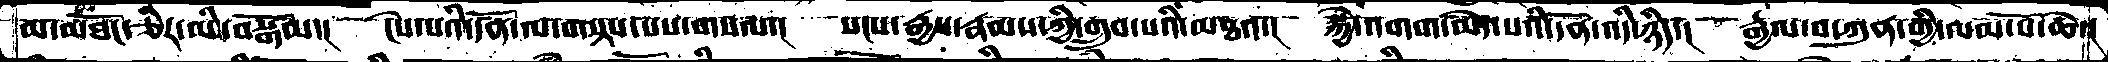མ་མཐོང་ཅིར་མི་བསྒོམ་།  ངེས་པའི་དོན་ལ་གསྟས་པས་གསལ་།  སངས་རྒྱས་རྣམས་ཀྱི་གྲུབ་པའི་མཐའ་།  སྐྱེ་འགག་མེད་པའི་དོན་འདི་ཉིད་།  རྒྱལ་བ་ཀུན་གྱི་ལམ་པོ་ཆེ་།
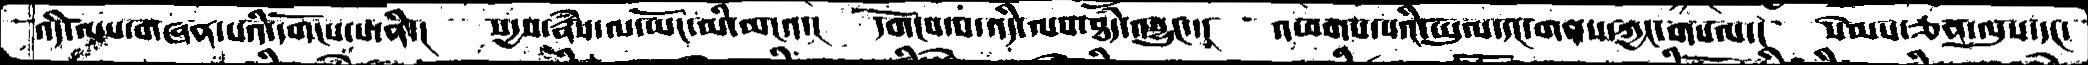འདི་ལས་གཞན་པའི་་དགོངས་པ་ནི་།  སདྱས་རྣཾས་ལ་ཡོང་མི་མངའ་།  དགོངས་པ་འདི་ལས་ཐཾད་འབྱུང་་།  འཕགས་པའི་ཡུལ་དང་གནས་ཀྱང་གསལ་།  སེམས་ཅན་ལུས་དང་
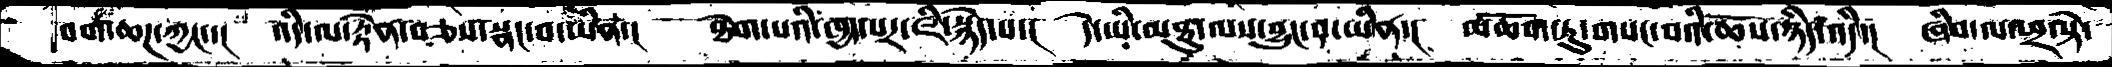བག་ཆཌ་ཀྱང་་།  འདི་ལ་རྟེན་བཅས་སྣང་བ་ཡིན་།  ཐེག་པའི་ཁྱད་པར་ཇི་སྙིད་པ་།  དེ་ཡི་མཐུ་ལས་བྱུང་བ་ཡིན་།  མཆོག་ཏུ་གསང་བའི་ཆོས་ཉིད་འདི་།  ཞིབ་ལ་ཕྲ་སྟེ་
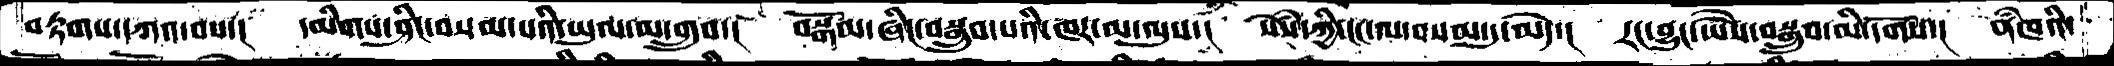བརྟགས་དཀའ་བས་།  དམིགས་ཤིང་བསམ་པའི་ཡུལ་མ་གྲུབ་།  བསྒོམ་ཞིང་བསྒྲུབ་པའི་ཁར་མ་ལུས་། སེཾས་ཀྱི་ངང་ལ་བསམ་དུ་མེད་།  རང་བྱུང་ཡཻས་བསྒྲུབ་མི་དགོས་།  ནཾཁའི་
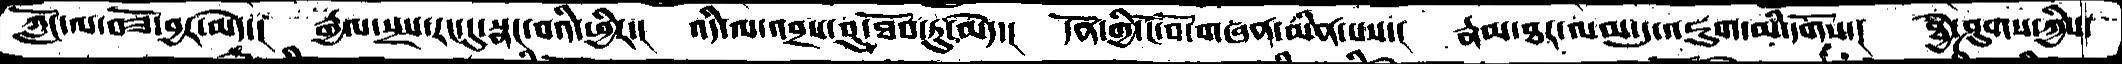ཀློང་ལ་བཟོ་བྱར་མེད་།  རྒྱལ་སྲས་རང་དུ་སྣང་བའི་ཕྱིར་།  འདི་ལ་འབྲས་བུ་ཐོབ་ཏུ་མེད་།  དོན་གྱི་ངོ་བོ་གཞན་མིན་པས་།  རྣམ་ཐར་ལམ་དུ་འཇུག་མི་དགོས་།  ཐྱེ་ཤུགས་ཀྱིས་
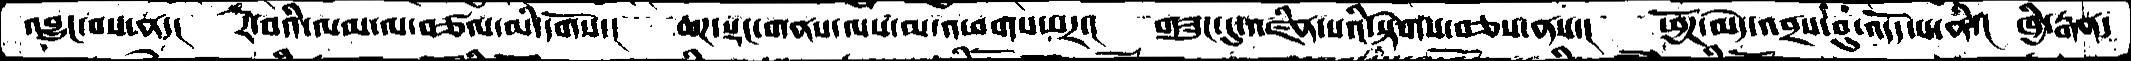འབྱུང་བས་ན་།  རེ་བའི་ལམ་ལ་བཙལ་མི་དགོས་།  ཆཌ་སྡང་གནས་ལས་མ་འཕགས་པར་།  གཟུང་དུ་འཛིན་པའི་སྟེགས་བཅས་ནས་།  ཕྱོཌ་མེད་འབྲས་བུ་འདོད་པ་ནི་།  ཁྱི་རྒན་
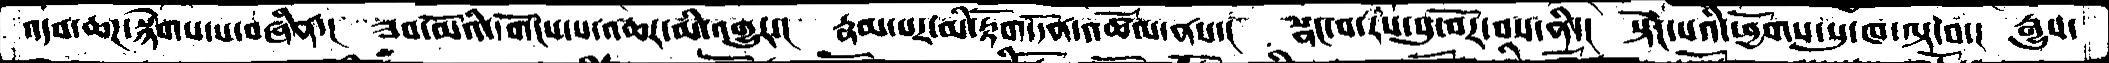འདབ་ཆཌ་སྙེགས་པ་བཞིན་།  ཟབ་མོའི་དགོངས་པ་འཆར་མི་འགྱུར་།  རྣམ་པར་མི་རྟོག་དོན་འཚོལ་ནས་།  སྣང་བ་རིས་སུ་བོར་བས་ནི་།  སྟེང་པའི་ཕྱོགས་སུ་ཁ་ལྟ་བ་།  རྒྱུས་
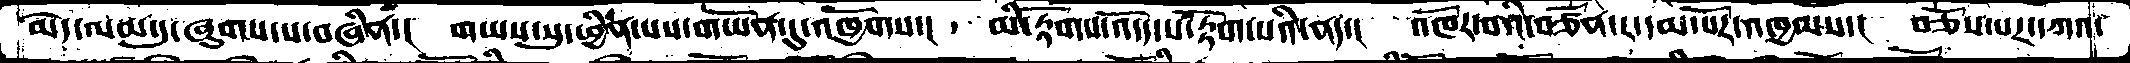མེད་ལམ་དུ་ཞུགས་པ་བཞིན་།  གཡས་སུ་ཕྱིན་པས་གཡོན་དུ་འཁྱོགས་།  མི་རྟོགས་འདོད་པ་རྟོག་པའི་ནད་།  འཁོར་བའི་བཙོན་ར་དམ་པོར་འཁྱམས་།  བཅོས་པར་དཀའ་
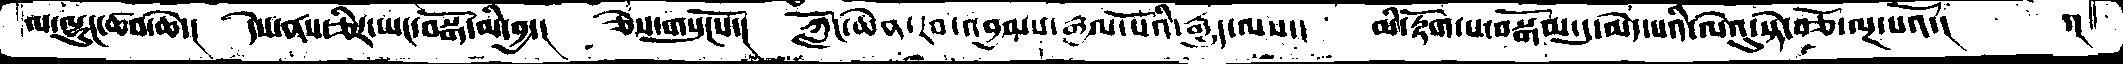ལ་ལྷུང་ཚབ་ཆེ་།  དེས་ནས་ཅིར་ཡང་བསྒོ་མི་བྱ་།  ཅེས་གསུངསོ་།  ཀློང་ཆེན་རབ་འབྱམས་རྒྱལ་པོའི་རྒྱུད་ལས་།  མི་རྟོག་པ་བསྒོམ་དུ་མེད་པའི་ལེའུ་སྟེ་བཅོ་ལྔ་པའོ་།   ་།
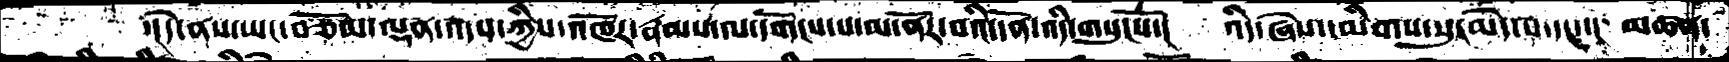་།དེ་ནས་ཡང་བཅོམ་ལྡན་འདས་ཀྱིས་འཁོར་རྣམས་ལ་དགོངས་པ་མ་ནོར་བའི་དོན་འདི་གསུངསོ་།   འདི་ཞེས་དམིགས་སུ་མེད་པ་དང་་།  མཚན་
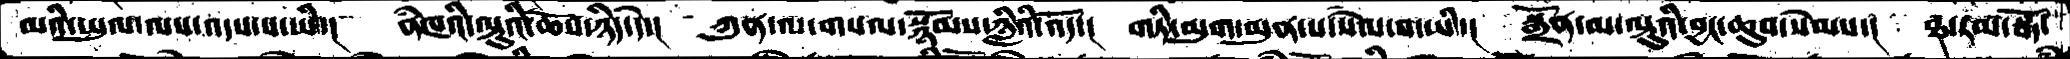མའི་ཡུལ་ལས་འདས་པ་ཡི་།   ནཾཁའི་ལྟུའི་ཆོས་ཉིད་དེ་།   ཀུན་ལ་གསལ་སྙོམས་ཉླིའི་འོད་།  གཏི་མུག་མུན་པ་སེལ་བ་ཡི་།   སྒྲོན་མ་ལྟུའི་བྱང་ཆུབ་སེམས་།    ཐ་རམ་སྒོ་
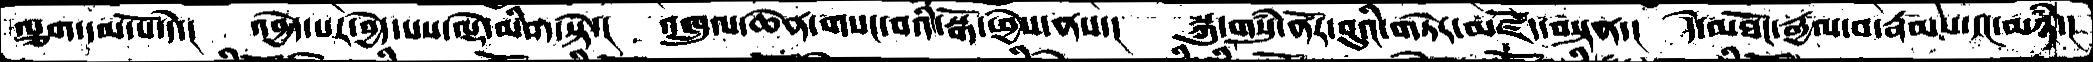ལྕག་དམ་པོ་དེ་།   འབྱེད་པར་བྱེད་པས་ལྡེ་མིག་སྟེ་།   འཁྲུལ་ཆེན་གསང་བའི་སྒོ་ཕྱེས་ནས་།   སྐུ་གསུཾ་ནོར་བུའི་གཏེར་མཛོད་བསྟན་།   དེ་མཐོང་རྒྱལ་བ་རྣམས་དང་མཉཾ་།
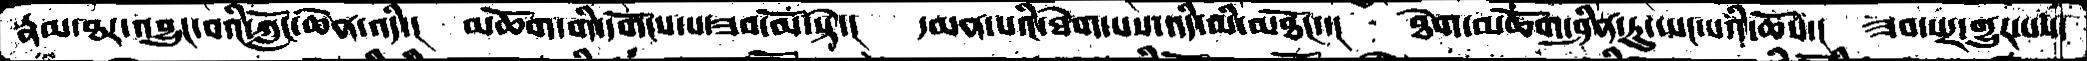རྣམ་ཐར་འབྱུང་བའི་ཀློང་ཆེན་འདི་།   མཆོག་གི་དགོངས་པ་ཟབ་མོ་སྟེ་།   དམན་པའི་ཐེག་པས་འདི་མིིི་མཐོང་་།   ཐེག་མཆོག་ཤིན་ཏུ་ཡང་པའི་ཆོས་།  ཟབ་པར་གྱུར་པས་
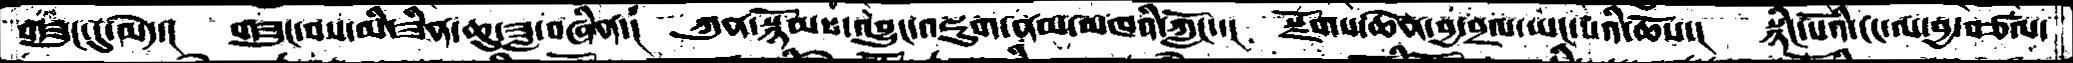གཟུང་དུ་མེད་།   གཟུང་བས་མི་ཟིན་ཆུ་ཟླ་བཞིན་།   ཀུན་སྙོམས་འབྱུང་འཇུག་ནམ་མཁའི་ཀློང་་།   སྫོགས་ཆེན་བྱ་བྲལ་ཡང་པའི་ཆོས་།   སྙིང་པོའི་ངང་ལ་བྱ་བཙལ་
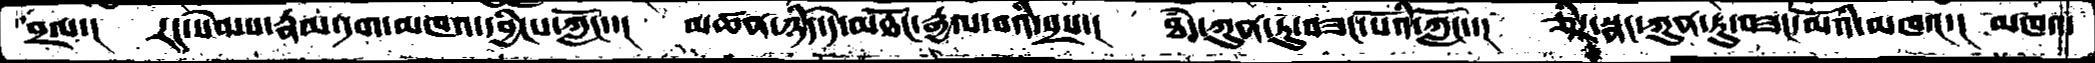བྲལ་།   རང་སེམས་རྣམ་དག་མཁའ་དབྱིངས་ཀློང་་།   མཚན་ཉིད་དེ་མཐོང་རྒྱལ་བའི་སྲས་།   ཐཾད་ཀུན་ཏུ་བཟང་པོའི་ཀློང་།   ཅིར་སྣང་ཀུན་ཏུ་བཟང་མོའི་མཁའ་།  མཁའ་
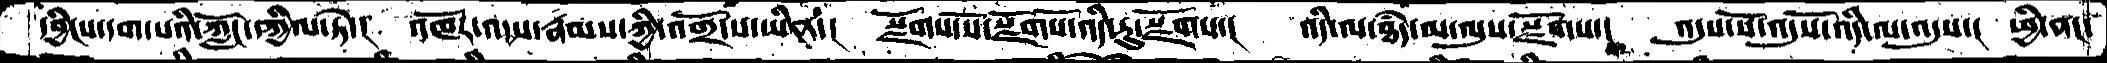དབྱིངས་དག་པའི་ཀློང་དཀྱིལ་ཏེ་།   འཁོར་འདས་རྣམས་ཀྱི་འགྲོ་ས་ཡིན་།   སྫོགས་སོ་སྫོགསོ་འདི་རུ་སྫོགས་།   འདི་ལ་ཐཾད་མ་ལུས་སྫོགས་།   འདུས་སོ་འདུསོ་འདི་ལ་འདུས་།   ཕྱི་ནང་
